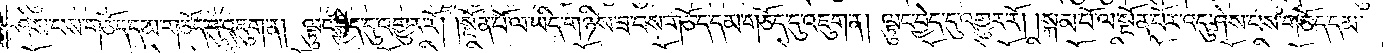ཤེས་པས་གཅོད་དམ་གཅོད་དུ་འཇུག་ན། ལྟུང་བྱེད་དུ་འགྱུར་རོ། །སྔོན་པོ་ལ་ཡིད་གཉིས་ཟ་བས་གཅོད་དམ་གཅོད་དུ་འཇུག་ན། ལྟུང་བྱེད་དུ་འགྱུར་རོ། །སྐམ་པོ་ལ་སྔོན་པོར་འདུ་ཤེས་པས་གཅོད་དམ་
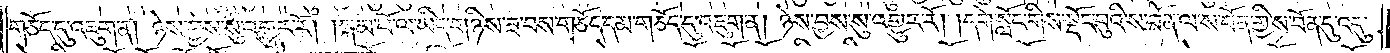གཅོད་དུ་འཇུག་ན། ཉེས་བྱས་སུ་འགྱུར་རོ། །སྐམ་པོ་ལ་ཡིད་གཉིས་ཟ་བས་གཅོད་དམ་གཅོད་དུ་འཇུག་ན། ཉེས་བྱས་སུ་འགྱུར་རོ། །དགེ་སློང་གིས་སྡོང་བུའི་ས་བོན་ལ་ས་བོན་གྱི་ས་བོན་དུ་འདུ་
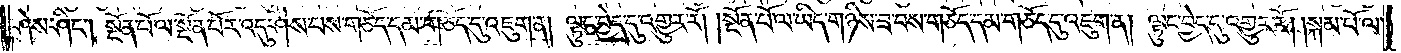ཤེས་ཤིང༌། སྔོན་པོ་ལ་སྔོན་པོར་འདུ་ཤེས་པས་གཅོད་དམ་གཅོད་དུ་འཇུག་ན། ལྟུང་བྱེད་དུ་འགྱུར་རོ། །སྔོན་པོ་ལ་ཡིད་གཉིས་ཟ་བས་གཅོད་དམ་གཅོད་དུ་འཇུག་ན། ལྟུང་བྱེད་དུ་འགྱུར་རོ། །སྐམ་པོ་ལ་
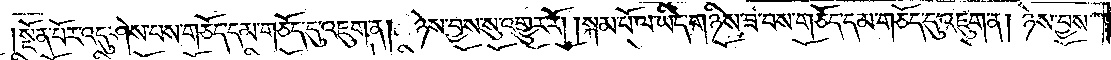སྔོན་པོར་འདུ་ཤེས་པས་གཅོད་དམ་གཅོད་དུ་འཇུག་ན། ཉེས་བྱས་སུ་འགྱུར་རོ། །སྐམ་པོ་ལ་ཡིད་གཉིས་ཟ་བས་གཅོད་དམ་གཅོད་དུ་འཇུག་ན། ཉེས་བྱས་
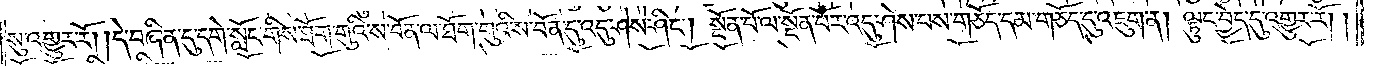སུ་འགྱུར་རོ། །དེ་བཞིན་དུ་དགེ་སློང་གིས་ཐོག་གུའི་ས་བོན་ལ་ཐོག་གུའི་ས་བོན་དུ་འདུ་ཤེས་ཤིང༌། སྔོན་པོ་ལ་སྔོན་པོར་འདུ་ཤེས་པས་གཅོད་དམ་གཅོད་དུ་འཇུག་ན། ལྟུང་བྱེད་དུ་འགྱུར་རོ། །
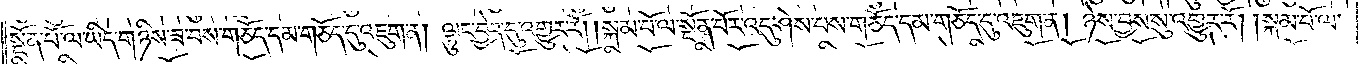སྔོན་པོ་ལ་ཡིད་གཉིས་ཟ་བས་གཅོད་དམ་གཅོད་དུ་འཇུག་ན། ལྟུང་བྱེད་དུ་འགྱུར་རོ། །སྐམ་པོ་ལ་སྔོན་པོར་འདུ་ཤེས་པས་གཅོད་དམ་གཅོད་དུ་འཇུག་ན། ཉེས་བྱས་སུ་འགྱུར་རོ། །སྐམ་པོ་ལ་
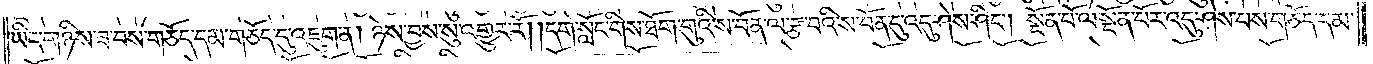ཡིད་གཉིས་ཟ་བས་གཅོད་དམ་གཅོད་དུ་འཇུག་ན། ཉེས་བྱས་སུ་འགྱུར་རོ། །དགེ་སློང་གིས་ཐོག་གུའི་ས་བོན་ལ་རྩ་བའི་ས་བོན་དུ་འདུ་ཤེས་ཤིང༌། སྔོན་པོ་ལ་སྔོན་པར་འདུ་ཤེས་པས་གཅོད་དམ་
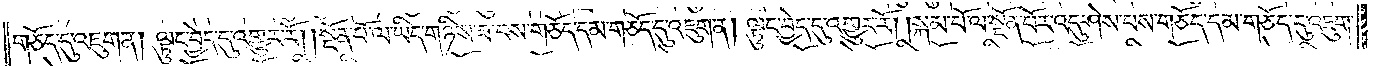གཅོད་དུ་འཇུག་ན། ལྟུང་བྱེད་དུ་འགྱུར་རོ། །སྔོན་པོ་ལ་ཡིད་གཉིས་ཟ་བས་གཅོད་དམ་གཅོད་དུ་འཇུག་ན། ལྟུང་བྱེད་དུ་འགྱུར་རོ། །སྐམ་པོ་ལ་སྔོན་པོར་འདུ་ཤེས་པས་གཅོད་དམ་གཅོད་དུ་འཇུག་
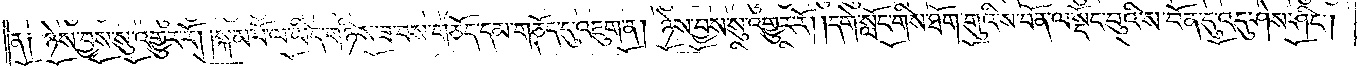ན། ཉེས་བྱས་སུ་འགྱུར་རོ། །སྐམ་པོ་ལ་ཡིད་གཉིས་ཟ་བས་གཅོད་དམ་གཅོད་དུ་འཇུག་ན། ཉེས་བྱས་སུ་འགྱུར་རོ། །དགེ་སློང་གིས་ཐོག་གུའི་ས་བོན་ལ་སྡོང་བུའི་ས་བོན་དུ་འདུ་ཤེས་ཤིང༌།
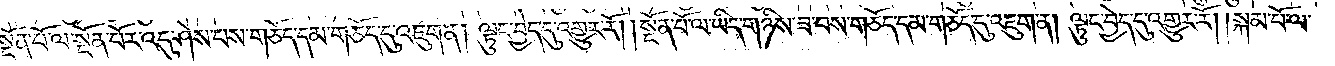སྔོན་པོ་ལ་སྔོན་པོར་འདུ་ཤེས་པས་གཅོད་དམ་གཅོད་དུ་འཇུག་ན། ལྟུང་བྱེད་དུ་འགྱུར་རོ། །སྔོན་པོ་ལ་ཡིད་གཉིས་ཟ་བས་གཅོད་དམ་གཅོད་དུ་འཇུག་ན། ལྟུང་བྱེད་དུ་འགྱུར་རོ། །སྐམ་པོ་ལ་
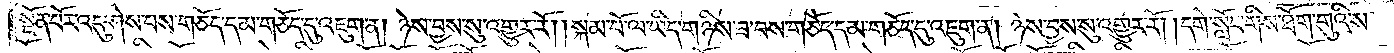སྔོན་པོར་འདུ་ཤེས་པས་གཅོད་དམ་གཅོད་དུ་འཇུག་ན། ཉེས་བྱས་སུ་འགྱུར་རོ། །སྐམ་པོ་ལ་ཡིད་གཉིས་ཟ་བས་གཅོད་དམ་གཅོད་དུ་འཇུག་ན། ཉེས་བྱས་སུ་འགྱུར་རོ། །དགེ་སློང་གིས་ཐོག་གུའི་ས་
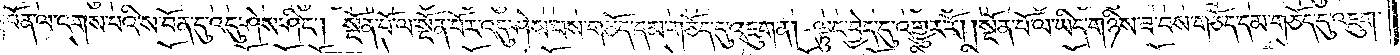བོན་ལ་འགས་པའི་ས་བོན་དུ་འདུ་ཤེས་ཤིང༌། སྔོན་པོ་ལ་སྔོན་པོར་འདུ་ཤེས་པས་གཅོད་དམ་གཅོད་དུ་འཇུག་ན། ལྟུང་བྱེད་དུ་འགྱུར་རོ། །སྔོན་པོ་ལ་ཡིད་གཉིས་ཟ་བས་གཅོད་དམ་གཅོད་དུ་འཇུག་
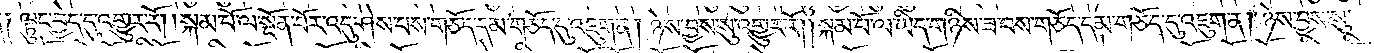ན། ལྟུང་བྱེད་དུ་འགྱུར་རོ། །སྐམ་པོ་ལ་སྔོན་པོར་འདུ་ཤེས་པས་གཅོད་དམ་གཅོད་དུ་འཇུག་ན། ཉེས་བྱས་སུ་འགྱུར་རོ། །སྐམ་པོ་ལ་ཡིད་གཉིས་ཟ་བས་གཅོད་དམ་གཅོད་དུ་འཇུག་ན། ཉེས་བྱས་སུ་
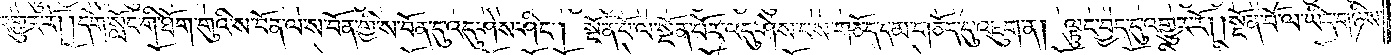འགྱུར་རོ། །དགེ་སློང་གི་ཐོག་གུའི་ས་བོན་ལ་ས་བོན་གྱི་ས་བོན་དུ་འདུ་ཤེས་ཤིང༌། སྔོན་པོ་ལ་སྔོན་པོར་འདུ་ཤེས་པས་གཅོད་དམ་གཅོད་དུ་འཇུག་ན། ལྟུང་བྱེད་དུ་འགྱུར་རོ། །སྔོན་པོ་ལ་ཡིད་གཉིས་
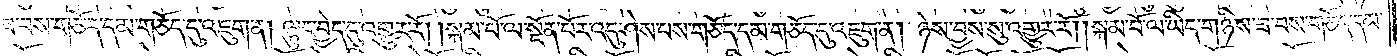ཟ་བས་གཅོད་དམ་གཅོད་དུ་འཇུག་ན། ལྟུང་བྱེད་དུ་འགྱུར་རོ། །སྐམ་པོ་ལ་སྔོན་པོར་འདུ་ཤེས་པས་གཅོད་དམ་གཅོད་དུ་འཇུག་ན། ཉེས་བྱས་སུ་འགྱུར་རོ། །སྐམ་པོ་ལ་ཡིད་གཉིས་ཟ་བས་གཅོད་དམ་
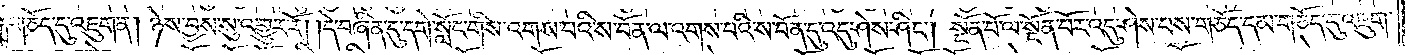གཅོད་དུ་འཇུག་ན། ཉེས་བྱས་སུ་འགྱུར་རོ། །དེ་བཞིན་དུ་དགེ་སློང་གིས་འགས་པའི་ས་བོན་ལ་འགས་པའི་ས་བོན་དུ་འདུ་ཤེས་ཤིང༌། སྔོན་པོ་ལ་སྔོན་པོར་འདུ་ཤེས་པས་གཅོད་དམ་གཅོད་དུ་འཇུག་
